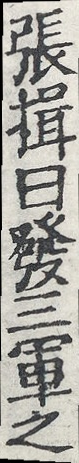張揖曰發三軍之
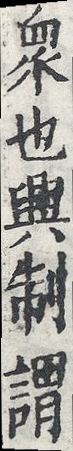衆也興制謂
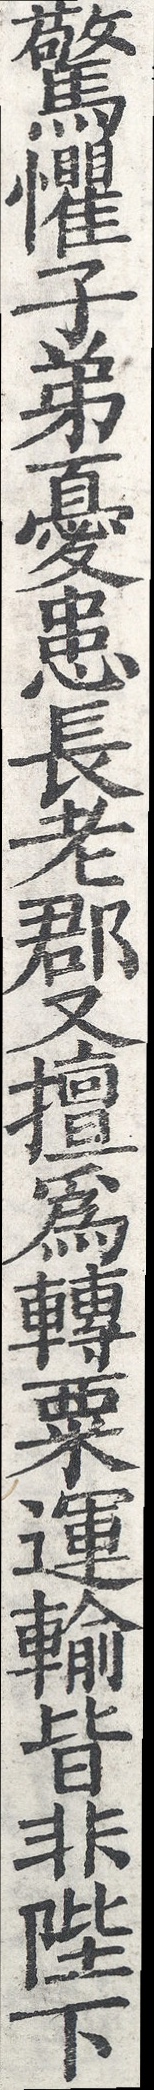驚懼子弟憂患長老郡又擅為轉粟運輸皆非陛下
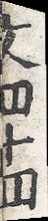文四十四
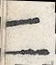二
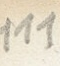111
